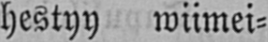hestyy wiimei-
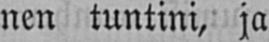nen tuntini, ja
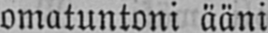omatuntoni ääni
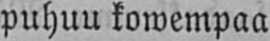puhuu lowempaa
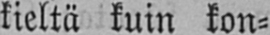kieltä kuin kon-
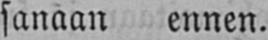sanaan ennen.
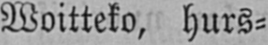Woitteko, hurs-
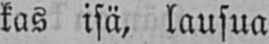kas isä, lausua
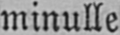minulle
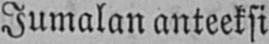Jumalan anteeksi
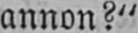annon?"
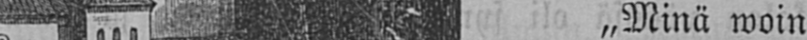„Minä woin
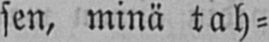sen, minä tah-
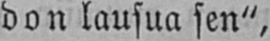don lausua sen",
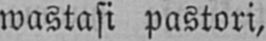wastasi pastori,
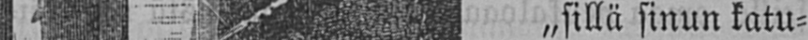„sillä sinun katu-
